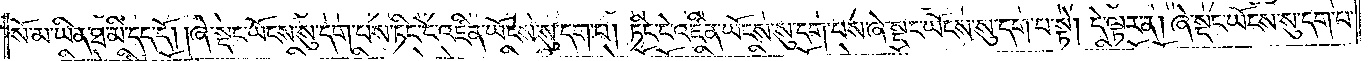སོ་མ་ཡིན་ཐ་མི་དད་དོ། །ཞེ་སྡང་ཡོངས་སུ་དག་པས་ཏིང་ངེ་འཛིན་ཡོངས་སུ་དག་པ། ཏིང་ངེ་འཛིན་ཡོངས་སུ་དག་པས་ཞེ་སྡང་ཡོངས་སུ་དག་པ་སྟེ། དེ་ལྟར་ན། ཞེ་སྡང་ཡོངས་སུ་དག་པ་
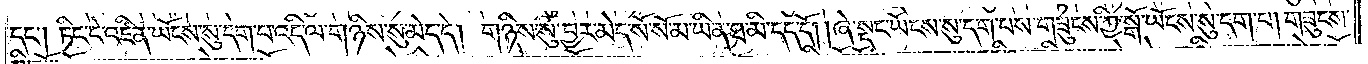དང༌། ཏིང་ངེ་འཛིན་ཡོངས་སུ་དག་པ་འདི་ལ་གཉིས་སུ་མེད་དེ། གཉིས་སུ་བྱར་མེད་སོ་སོ་མ་ཡིན་ཐ་མི་དད་དོ། །ཞེ་སྡང་ཡོངས་སུ་དག་པས་གཟུངས་ཀྱི་སྒོ་ཡོངས་སུ་དག་པ། གཟུངས་
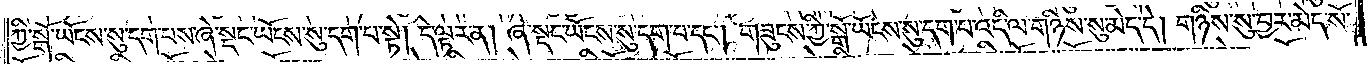ཀྱི་སྒོ་ཡོངས་སུ་དག་པས་ཞེ་སྡང་ཡོངས་སུ་དག་པ་སྟེ། དེ་ལྟར་ན། ཞེ་སྡང་ཡོངས་སུ་དག་པ་དང༌། གཟུངས་ཀྱི་སྒོ་ཡོངས་སུ་དག་པ་འདི་ལ་གཉིས་སུ་མེད་དེ། གཉིས་སུ་བྱར་མེད་སོ་
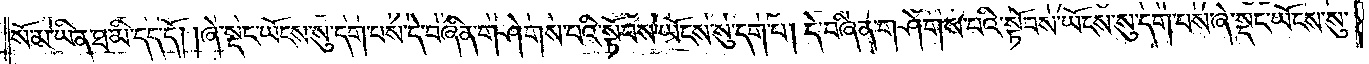སོ་མ་ཡིན་ཐ་མི་དད་དོ། །ཞེ་སྡང་ཡོངས་སུ་དག་པས་དེ་བཞིན་གཤེགས་པའི་སྟོབས་ཡོངས་སུ་དག་པ། དེ་བཞིན་གཤེགས་པའི་སྟོབས་ཡོངས་སུ་དག་པས་ཞེ་སྡང་ཡོངས་སུ་
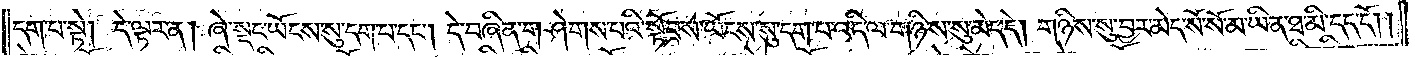དག་པ་སྟེ། དེ་ལྟར་ན། ཞེ་སྡང་ཡོངས་སུ་དག་པ་དང༌། དེ་བཞིན་གཤེགས་པའི་སྟོབས་ཡོངས་སུ་དག་པ་འདི་ལ་གཉིས་སུ་མེད་དེ། གཉིས་སུ་བྱར་མེད་སོ་སོ་མ་ཡིན་ཐ་མི་དད་དོ། །
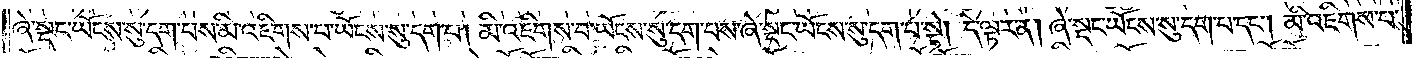ཞེ་སྡང་ཡོངས་སུ་དག་པས་མི་འཇིགས་པ་ཡོངས་སུ་དག་པ་དང༌། མི་འཇིགས་པ་ཡོངས་སུ་དག་པས་ཞེ་སྡང་ཡོངས་སུ་དག་པ་སྟེ། དེ་ལྟར་ན། ཞེ་སྡང་ཡོངས་སུ་དག་པ་དང༌། མི་འཇིགས་པ་
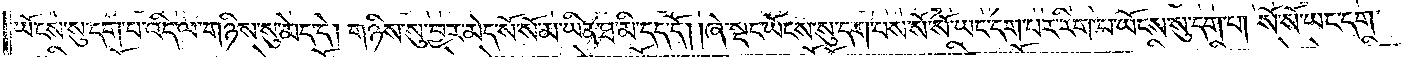ཡོངས་སུ་དག་པ་འདི་ལ་གཉིས་སུ་མེད་དེ། གཉིས་སུ་བྱར་མེད་སོ་སོ་མ་ཡིན་ཐ་མི་དད་དོ། །ཞེ་སྡང་ཡོངས་སུ་དག་པས་སོ་སོ་ཡང་དག་པར་རིག་པ་ཡོངས་སུ་དག་པ། སོ་སོ་ཡང་དག་
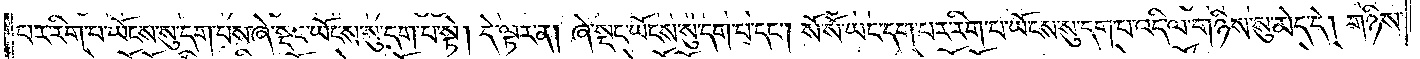པར་རིག་པ་ཡོངས་སུ་དག་པས་ཞེ་སྡང་ཡོངས་སུ་དག་པ་སྟེ། དེ་ལྟར་ན། ཞེ་སྡང་ཡོངས་སུ་དག་པ་དང༌། སོ་སོ་ཡང་དག་པར་རིག་པ་ཡོངས་སུ་དག་པ་འདི་ལ་གཉིས་སུ་མེད་དེ། གཉིས་
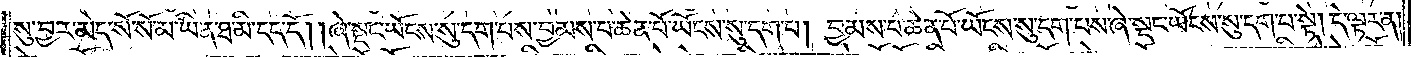སུ་བྱར་མེད་སོ་སོ་མ་ཡིན་ཐ་མི་དད་དོ། །ཞེ་སྡང་ཡོངས་སུ་དག་པས་བྱམས་པ་ཆེན་པོ་ཡོངས་སུ་དག་པ། བྱམས་པ་ཆེན་པོ་ཡོངས་སུ་དག་པས་ཞེ་སྡང་ཡོངས་སུ་དག་པ་སྟེ། དེ་ལྟར་ན།
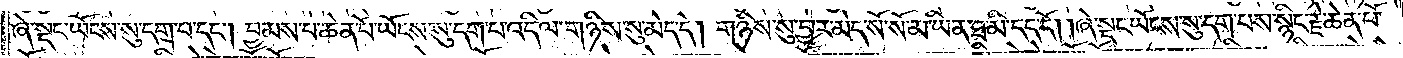ཞེ་སྡང་ཡོངས་སུ་དག་པ་དང༌། བྱམས་པ་ཆེན་པོ་ཡོངས་སུ་དག་པ་འདི་ལ་གཉིས་སུ་མེད་དེ། གཉིས་སུ་བྱར་མེད་སོ་སོ་མ་ཡིན་ཐ་མི་དད་དོ། །ཞེ་སྡང་ཡོངས་སུ་དག་པས་སྙིང་རྗེ་ཆེན་པོ་
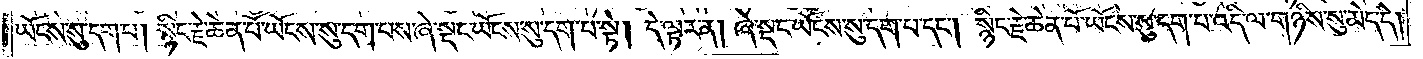ཡོངས་སུ་དག་པ། སྙིང་རྗེ་ཆེན་པོ་ཡོངས་སུ་དག་པས་ཞེ་སྡང་ཡོངས་སུ་དག་པ་སྟེ། དེ་ལྟར་ན། ཞེ་སྡང་ཡོངས་སུ་དག་པ་དང༌། སྙིང་རྗེ་ཆེན་པོ་ཡོངས་སུ་དག་པ་འདི་ལ་གཉིས་སུ་མེད་དེ།
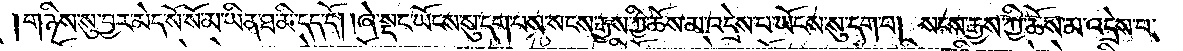གཉིས་སུ་བྱར་མེད་སོ་སོ་མ་ཡིན་ཐ་མི་དད་དོ། །ཞེ་སྡང་ཡོངས་སུ་དག་པས་སངས་རྒྱས་ཀྱི་ཆོས་མ་འདྲེས་པ་ཡོངས་སུ་དག་པ། སངས་རྒྱས་ཀྱི་ཆོས་མ་འདྲེས་པ་
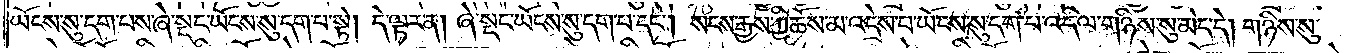ཡོངས་སུ་དག་པས་ཞེ་སྡང་ཡོངས་སུ་དག་པ་སྟེ། དེ་ལྟར་ན། ཞེ་སྡང་ཡོངས་སུ་དག་པ་དང༌། སངས་རྒྱས་ཀྱི་ཆོས་མ་འདྲེས་པ་ཡོངས་སུ་དག་པ་འདི་ལ་གཉིས་སུ་མེད་དེ། གཉིས་སུ་
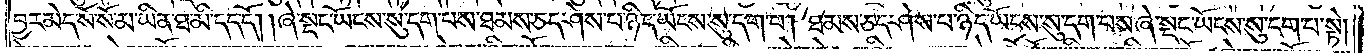བྱར་མེད་སོ་སོ་མ་ཡིན་ཐ་མི་དད་དོ། །ཞེ་སྡང་ཡོངས་སུ་དག་པས་ཐམས་ཅད་ཤེས་པ་ཉིད་ཡོངས་སུ་དག་པ། ཐམས་ཅད་ཤེས་པ་ཉིད་ཡོངས་སུ་དག་པས་ཞེ་སྡང་ཡོངས་སུ་དག་པ་སྟེ།
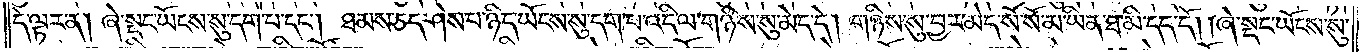དེ་ལྟར་ན། ཞེ་སྡང་ཡོངས་སུ་དག་པ་དང༌། ཐམས་ཅད་ཤེས་པ་ཉིད་ཡོངས་སུ་དག་པ་འདི་ལ་གཉིས་སུ་མེད་དེ། གཉིས་སུ་བྱར་མེད་སོ་སོ་མ་ཡིན་ཐ་མི་དད་དོ། །ཞེ་སྡང་ཡོངས་སུ་
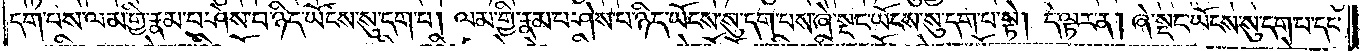དག་པས་ལམ་གྱི་རྣམ་པ་ཤེས་པ་ཉིད་ཡོངས་སུ་དག་པ། ལམ་གྱི་རྣམ་པ་ཤེས་པ་ཉིད་ཡོངས་སུ་དག་པས་ཞེ་སྡང་ཡོངས་སུ་དག་པ་སྟེ། དེ་ལྟར་ན། ཞེ་སྡང་ཡོངས་སུ་དག་པ་དང༌།
